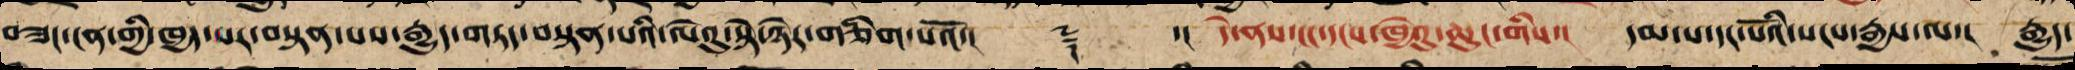བཟང་ངན་གྱི་ཁྱད་པར་བསྟན་པས་རྒྱུད་གཏད་བསྟན་པའི་ལེའུ་སྟེ་ཉེར་གཅིག་པའོ་།། ༈ ་།། དེ་ནས་ངང་དངས་ཁྱེའུ་ཆུང་གིས་། དམ་པ་དང་པོའི་སངས་རྒྱས་ལ་། རྒྱུད་
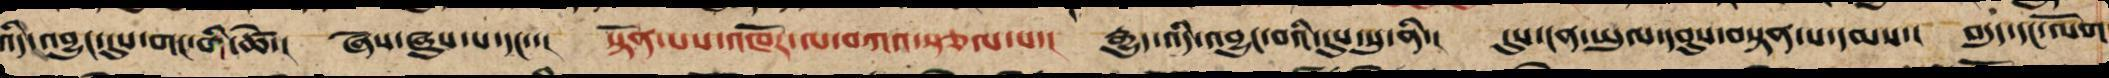འདི་འབྱུང་དུས་གང་གི་ཚེ་། ཞེས་ཞུས་པ་དང་་། སྟོན་པས་འཁོར་ལ་བཀའ་སྩལ་པ་། རྒྱུད་འདི་འབྱུང་བའི་དུས་སུ་ནི་། དུས་ངན་ཡུལ་དབུས་བསྟན་པ་དམས་། བདུད་དང་ལོག
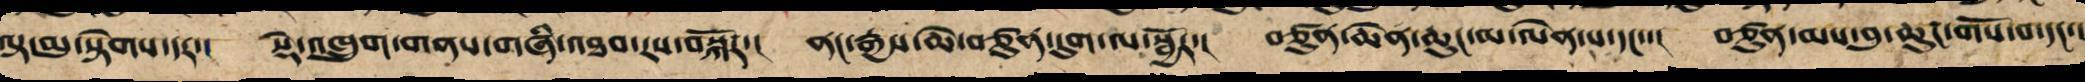ལྟ་མུ་སྟེགས་དར་། སྡེ་འཁྲུག་གནས་གཞི་འཐབ་རས་བསྐོར་། ནང་རྒྱས་ཆེ་བཙུན་དུག་ལ་སྦྱོར་། བཙུན་ཆེན་ཆུང་མ་ལེན་པ་དང་་། བཙུན་མས་བུ་ཆུང་གསོ་བ་དང་།
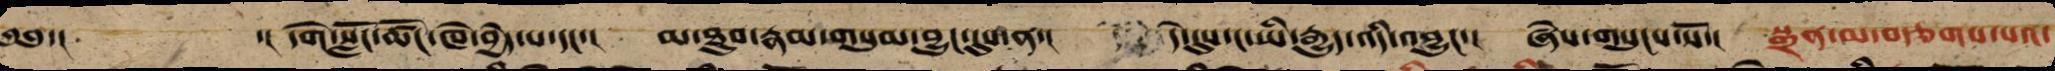།༄༅། །དགེ་སློང་ཚོང་ཁེ་བྱེད་པ་དང་། མི་ཐུབ་རྣམ་གསུམ་བྱུང་འདུས་ན། དེ་དུས་ང་ཡི་རྒྱུད་འདི་འབྱུང་། ཞེས་གསུངས་སོ། སྒྲོན་མ་བརྩེགས་པའི་
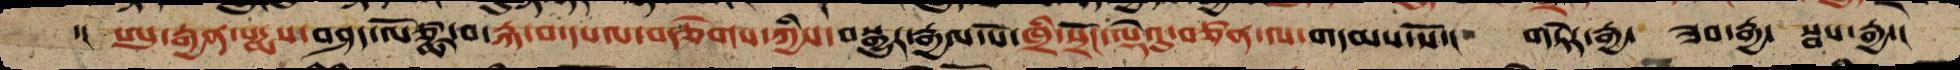་།། ཨུ་རྒྱན་པདྨས་བཤད་ལོཙྪ་བ་སྐ་བ་དཔལ་བརྩེགས་ཀྱིས་བསྒྱུར་རྒྱལ་པོ་ཁྲི་སྲོང་ལྡེའུ་བཙན་ལ་གདམས་སོ་། གཏེར་རྒྱ་ ཟབ་རྒྱ་ སྦས་རྒྱ་།
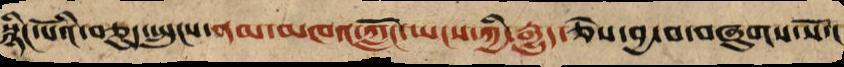སྙིང་པོའི་བཅུད་སྤུངས་ནམ་མཁའ་ཀློང་ཡངས་ཀྱི་རྒྱུད་ཅེས་བྱ་བ་བཞུགས་སོ་།
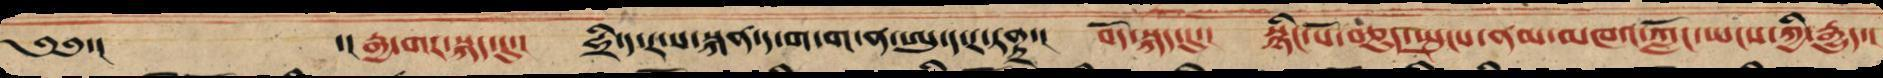༄༅་། ་།རྒྱ་གར་སྐད་དུ་། ཧྲྀ་ད་ར་ས་སྐན་ད་ག་ག་ཨུ་ད་ར་ཏནྟྲ་། བོད་སྐད་དུ་། སྙིང་པོ་བཅུད་སྤུངས་ནམ་མཁའ་ཀློང་ཡངས་ཀྱི་རྒྱུད་།
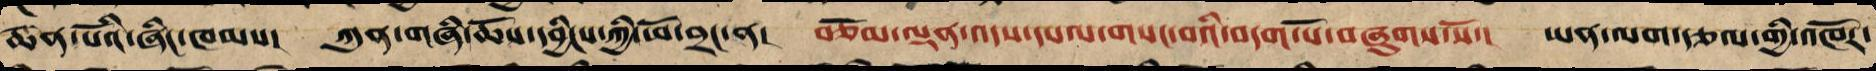ཆེན་པོའི་ཞིང་ཁམས་། ཀུན་གཞི་ཆོས་དབྱིངས་ཀྱི་ཕོ་བྲང་ན་། བཅོམ་ལྡན་འདས་དཔལ་གསང་བའི་བདག་པོ་བཞུགས་སོ་། ཡན་ལག་རྩལ་གྱི་འཁོར་
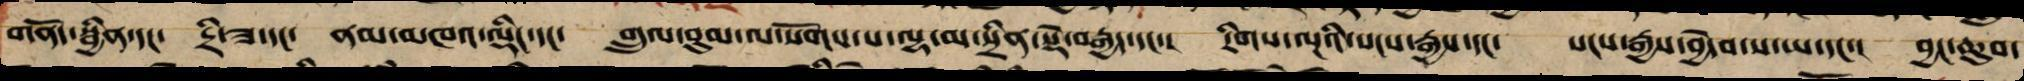གནོད་སྦྱིན་དང་ དྲི་ཟ་དང་ ནམ་མཁའ་ལྡིང་དང་ གྲུལ་བུམ་ལ་སོགས་པ་ལྷ་མ་སྲིན་སྡེ་བརྒྱད་དང་། རིགས་ལྔའི་སངས་རྒྱས་དང་ སངས་རྒྱས་བྱེ་བ་ས་ཡ་དང་། བྱང་ཆུབ་
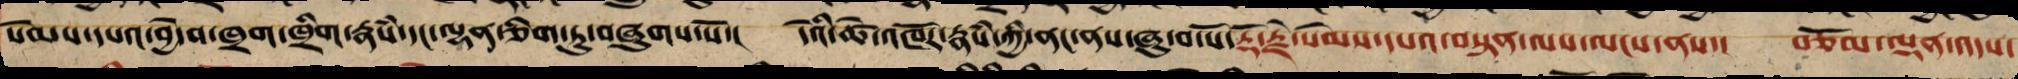སེམས་དཔའ་བྱེ་བ་ཁྲག་ཁྲིག་རྣམས་དང་ལྷན་ཅིག་ཏུ་བཞུགས་སོ་། དེའི་ཚེ་འཁོར་རྣཾས་ཀྱི་ནང་ནས་ཞུ་བ་པོ་རྡོ་རྗེ་སེམས་དཔའ་སྟན་ལས་ལངས་ནས་། བཅོམ་ལྡན་འདས་
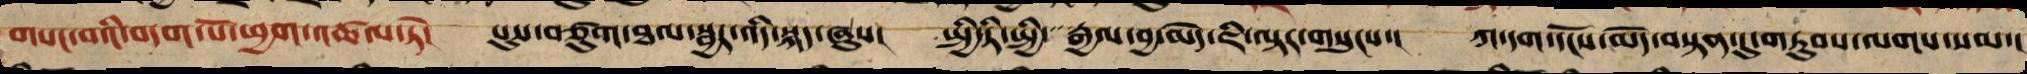གསང་བའི་བདག་པོ་ལ་ཕྱག་འཚལ་ཏེ། པུས་བཙུག་ཐལ་སྦྱར་འདི་སྐད་ཞུས། སྤྱི་ཏི་སྤྱི་རྒྱལ་བྱ་མེད་ཇི་ལྟར་གསུངས་། ཀ་དག་དངོས་མེད་བསྟན་དུ་གཏུབས་ལགས་སམ་།
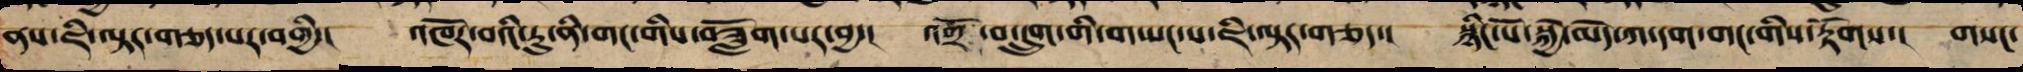ནས་ཇི་ལྟར་གཅད་པར་བགྱི་། འཁོར་བའི་རུ་ནི་གང་གིས་བཟློག་པར་བྱ་། འགྲོ་བ་དྲུག་གི་གཡང་ས་ཇི་ལྟར་གཅོད་། སྙིང་པོ་སྐྱེ་མེད་ཀ་དག་གང་གིས་རྟོགས་། གསང་
